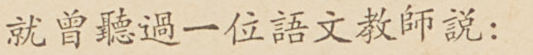就曾聽過一位語文教師說：
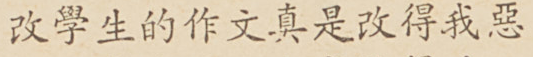改學生的作文真是改得我惡
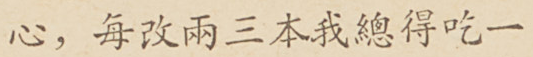心，每改兩三本我總得吃一
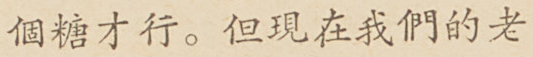個糖才行。但現在我們的老
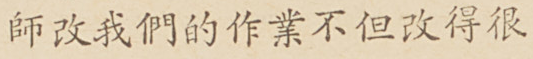師改我們的作業不但改得很
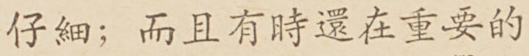仔細；而且有時還在重要的
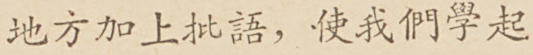地方加上批語，使我們學起
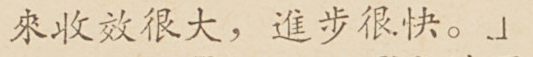來收效很大，進步很快。」
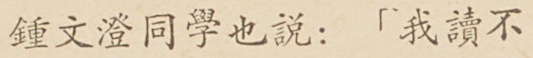鍾文澄同學也說：「我讀不
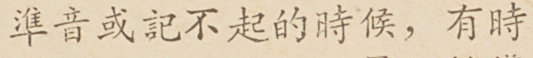準音或記不起的時候，有時
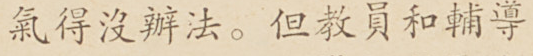氣得沒辦法。但教員和輔導
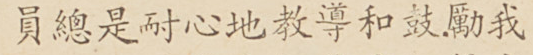員總是耐心地教導和鼓勵我
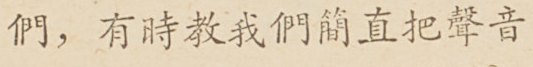們，有時教我們簡直把聲音
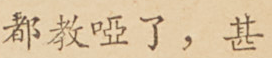都教啞了，甚
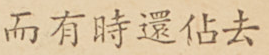而有時還佔去
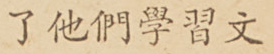了他們學習文
